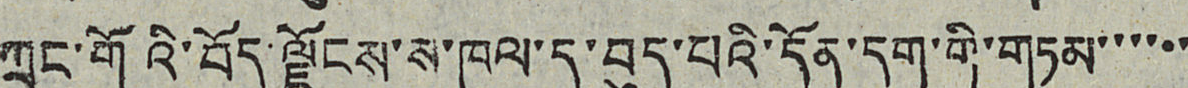ཀྲུང་གོའི་བོད་ལྗོངས་ས་ཁུལ་དུ་བུད་པའི་དོན་དག་གི་གཏམ་་་་་་
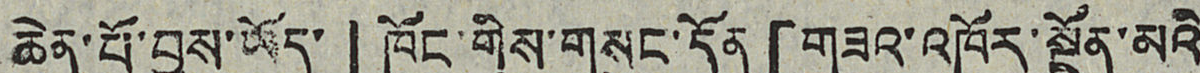ཆེན་པོ་བྱས་ཡོད་」ཁོང་གིས་གསུང་དོན「གཟའ་འཁོར་སྔོན་མའི
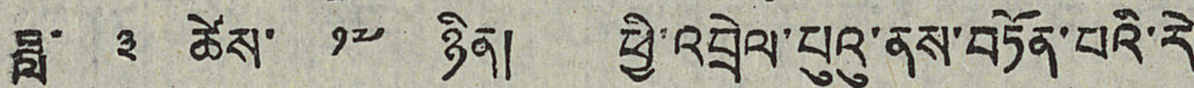ཟླ་ ༣ ཚེས་ ༡༧ ཉིན། ཕྱི་འབྲེལ་པུའུ་ནས་བཏོན་པའི་རེ
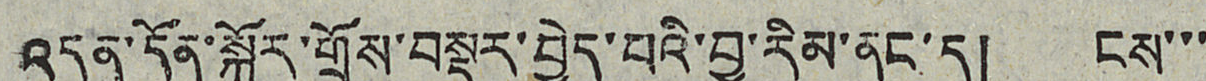འདུན་དོན་སྐོར་གྲོས་བསྡུར་བྱེད་པའི་བྱ་རིམ་ནང་དུ། ངས་་་
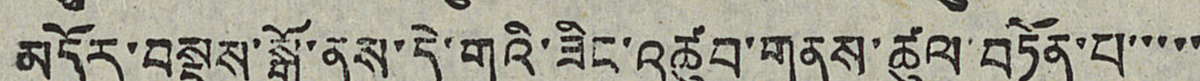མདོར་བསྡུས་སྒོ་ནས་དེ་གའི་ཟིང་འཚུབ་གནས་ཚུལ་བཏོན་པ་་་་་
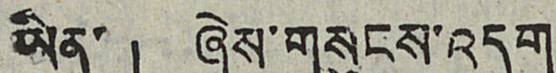ཡིན་」 ཞེས་གསུངས་འདུག
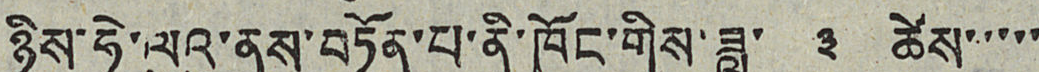ཉིས་ཧེ་ལུའུ་ནས་བཏོན་པ་ནི་ཁོང་གིས་ཟླ་ ༣ ཚེས་་་་་
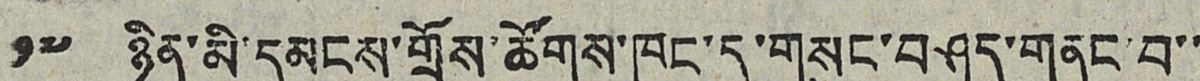༡༧ ཉིན་མི་དམངས་གྲོས་ཚོགས་ཁང་དུ་གསུང་བཤད་གནང་བ་་
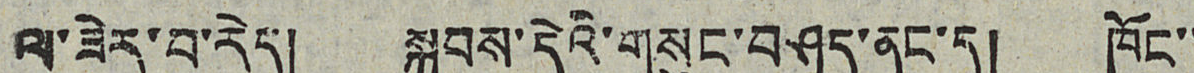ལ་ཟེར་བ་རེད། སྐབས་དེའི་གསུང་བཤད་ནང་དུ། ཁོང་་
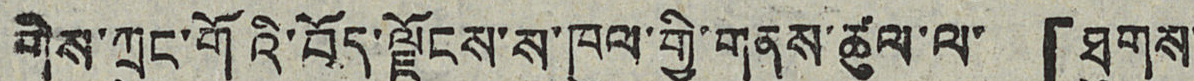གིས་ཀྲུང་གོའི་བོད་ལྗོངས་ས་ཁུལ་གྱི་གནས་ཚུལ་ལ་ 「ཐུགས་
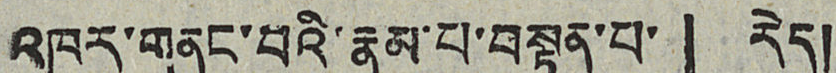འཁུར་གནང་བའི་རྣམ་པ་བསྟན་པ་」 རེད།
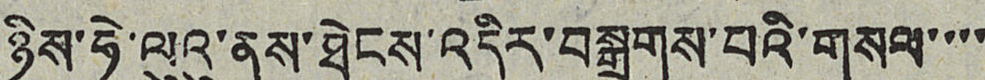ཉིས་ཧེ་ལུའུ་ནས་ཐེངས་འདིར་བསྒྲགས་པའི་གསལ་་་་
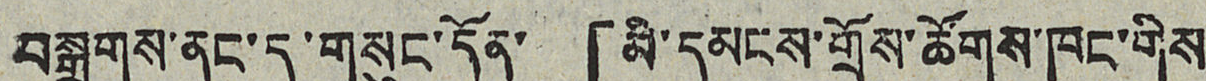བསྒྲགས་ནང་དུ་གསུང་དོན་ 「མི་དམངས་གྲོས་ཚོགས་ཁང་གིས
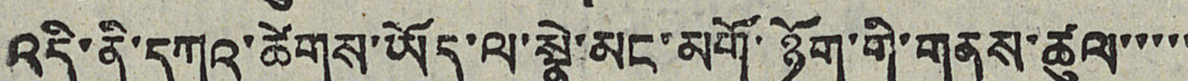འདི་ནི་དཀའ་ཚེགས་ཡོད་ལ་སྣེ་མང་མགོ་ཉོག་གི་གནས་ཚུལ་་་་་
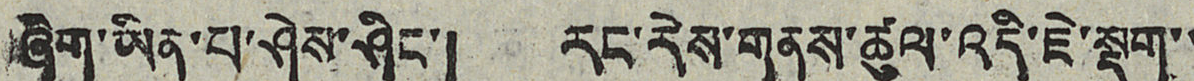ཞིག་ཡིན་པ་ཤེས་ཤིང་། རང་རེས་གནས་ཚུལ་འདི་ཇེ་སྡུག་་
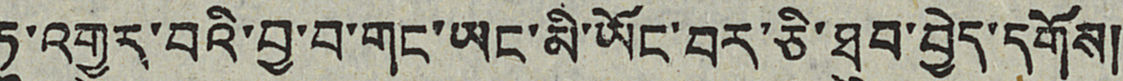ཏུ་འགྱུར་བའི་བྱ་བ་གང་ཡང་མི་ཡོང་བར་ཅི་ཐུབ་བྱེད་དགོས།
